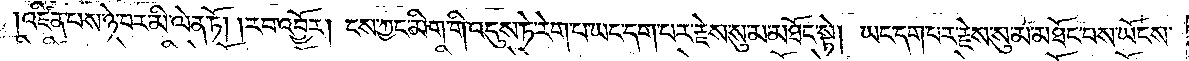འཛིན་པས་ཉེ་བར་མི་ལེན་ཏོ། །རབ་འབྱོར། ངས་ཀྱང་མིག་གི་འདུས་ཏེ་རེག་པ་ཡང་དག་པར་རྗེས་སུ་མ་མཐོང་སྟེ། ཡང་དག་པར་རྗེས་སུ་མ་མཐོང་བས་ཡོངས་
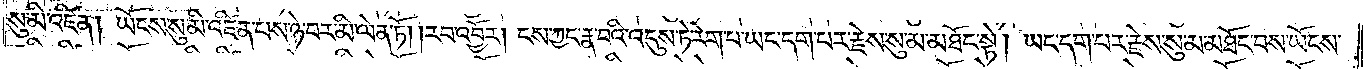སུ་མི་འཛིན། ཡོངས་སུ་མི་འཛིན་པས་ཉེ་བར་མི་ལེན་ཏོ། །རབ་འབྱོར། ངས་ཀྱང་རྣ་བའི་འདུས་ཏེ་རེག་པ་ཡང་དག་པར་རྗེས་སུ་མ་མཐོང་སྟེ། ཡང་དག་པར་རྗེས་སུ་མ་མཐོང་བས་ཡོངས་
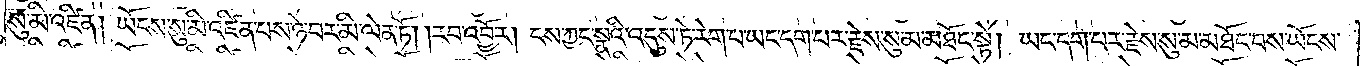སུ་མི་འཛིན། ཡོངས་སུ་མི་འཛིན་པས་ཉེ་བར་མི་ལེན་ཏོ། །རབ་འབྱོར། ངས་ཀྱང་སྣའི་འདུས་ཏེ་རེག་པ་ཡང་དག་པར་རྗེས་སུ་མ་མཐོང་སྟེ། ཡང་དག་པར་རྗེས་སུ་མ་མཐོང་བས་ཡོངས་
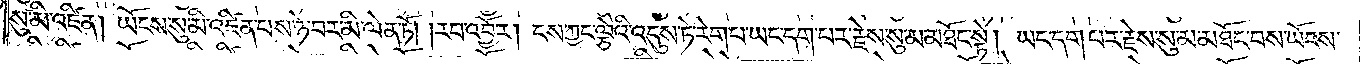སུ་མི་འཛིན། ཡོངས་སུ་མི་འཛིན་པས་ཉེ་བར་མི་ལེན་ཏོ། །རབ་འབྱོར། ངས་ཀྱང་ལྕེའི་འདུས་ཏེ་རེག་པ་ཡང་དག་པར་རྗེས་སུ་མ་མཐོང་སྟེ། ཡང་དག་པར་རྗེས་སུ་མ་མཐོང་བས་ཡོངས་
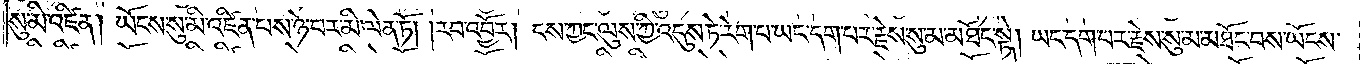སུ་མི་འཛིན། ཡོངས་སུ་མི་འཛིན་པས་ཉེ་བར་མི་ལེན་ཏོ། །རབ་འབྱོར། ངས་ཀྱང་ལུས་ཀྱི་འདུས་ཏེ་རེག་པ་ཡང་དག་པར་རྗེས་སུ་མ་མཐོང་སྟེ། ཡང་དག་པར་རྗེས་སུ་མ་མཐོང་བས་ཡོངས་
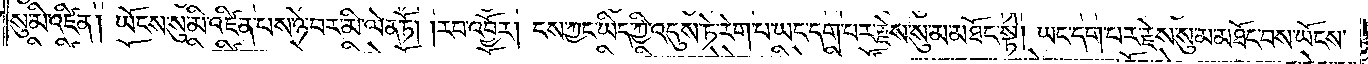སུ་མི་འཛིན། ཡོངས་སུ་མི་འཛིན་པས་ཉེ་བར་མི་ལེན་ཏོ། །རབ་འབྱོར། ངས་ཀྱང་ཡིད་ཀྱི་འདུས་ཏེ་རེག་པ་ཡང་དག་པར་རྗེས་སུ་མ་མཐོང་སྟེ། ཡང་དག་པར་རྗེས་སུ་མ་མཐོང་བས་ཡོངས་
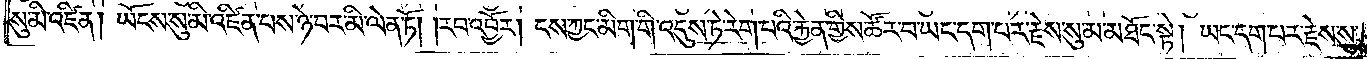སུ་མི་འཛིན། ཡོངས་སུ་མི་འཛིན་པས་ཉེ་བར་མི་ལེན་ཏོ། །རབ་འབྱོར། ངས་ཀྱང་མིག་གི་འདུས་ཏེ་རེག་པའི་རྐྱེན་གྱིས་ཚོར་བ་ཡང་དག་པར་རྗེས་སུ་མ་མཐོང་སྟེ། ཡང་དག་པར་རྗེས་སུ་
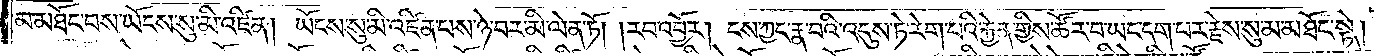མ་མཐོང་བས་ཡོངས་སུ་མི་འཛིན། ཡོངས་སུ་མི་འཛིན་པས་ཉེ་བར་མི་ལེན་ཏོ། །རབ་འབྱོར། ངས་ཀྱང་རྣ་བའི་འདུས་ཏེ་རེག་པའི་རྐྱེན་གྱིས་ཚོར་བ་ཡང་དག་པར་རྗེས་སུ་མ་མཐོང་སྟེ།
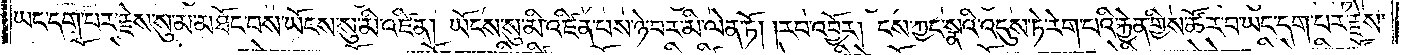ཡང་དག་པར་རྗེས་སུ་མ་མཐོང་བས་ཡོངས་སུ་མི་འཛིན། ཡོངས་སུ་མི་འཛིན་པས་ཉེ་བར་མི་ལེན་ཏོ། །རབ་འབྱོར། ངས་ཀྱང་སྣའི་འདུས་ཏེ་རེག་པའི་རྐྱེན་གྱིས་ཚོར་བ་ཡང་དག་པར་རྗེས་
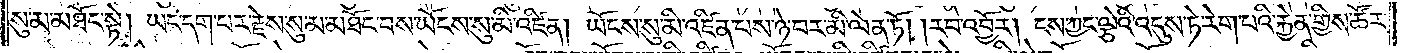སུ་མ་མཐོང་སྟེ། ཡང་དག་པར་རྗེས་སུ་མ་མཐོང་བས་ཡོངས་སུ་མི་འཛིན། ཡོངས་སུ་མི་འཛིན་པས་ཉེ་བར་མི་ལེན་ཏོ། །རབ་འབྱོར། ངས་ཀྱང་ལྕེའི་འདུས་ཏེ་རེག་པའི་རྐྱེན་གྱིས་ཚོར་
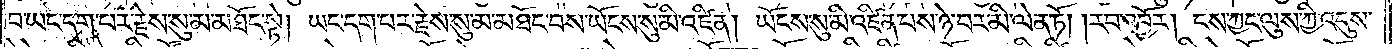བ་ཡང་དག་པར་རྗེས་སུ་མ་མཐོང་སྟེ། ཡང་དག་པར་རྗེས་སུ་མ་མཐོང་བས་ཡོངས་སུ་མི་འཛིན། ཡོངས་སུ་མི་འཛིན་པས་ཉེ་བར་མི་ལེན་ཏོ། །རབ་འབྱོར། ངས་ཀྱང་ལུས་ཀྱི་འདུས་
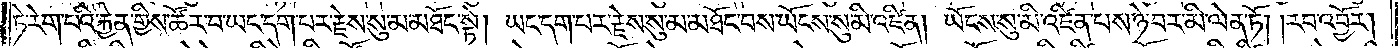ཏེ་རེག་པའི་རྐྱེན་གྱིས་ཚོར་བ་ཡང་དག་པར་རྗེས་སུ་མ་མཐོང་སྟེ། ཡང་དག་པར་རྗེས་སུ་མ་མཐོང་བས་ཡོངས་སུ་མི་འཛིན། ཡོངས་སུ་མི་འཛིན་པས་ཉེ་བར་མི་ལེན་ཏོ། །རབ་འབྱོར།
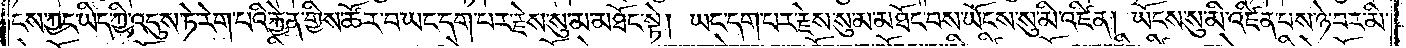ངས་ཀྱང་ཡིད་ཀྱི་འདུས་ཏེ་རེག་པའི་རྐྱེན་གྱིས་ཚོར་བ་ཡང་དག་པར་རྗེས་སུ་མ་མཐོང་སྟེ། ཡང་དག་པར་རྗེས་སུ་མ་མཐོང་བས་ཡོངས་སུ་མི་འཛིན། ཡོངས་སུ་མི་འཛིན་པས་ཉེ་བར་མི་
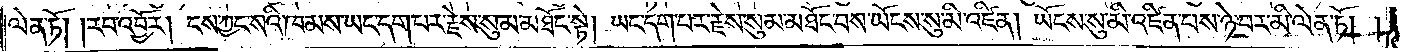ལེན་ཏོ། །རབ་འབྱོར། ངས་ཀྱང་སའི་ཁམས་ཡང་དག་པར་རྗེས་སུ་མ་མཐོང་སྟེ། ཡང་དག་པར་རྗེས་སུ་མ་མཐོང་བས་ཡོངས་སུ་མི་འཛིན། ཡོངས་སུ་མི་འཛིན་པས་ཉེ་བར་མི་ལེན་ཏོ། །
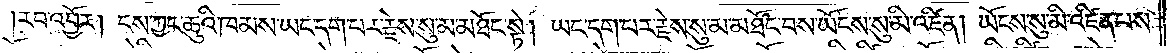རབ་འབྱོར། ངས་ཀྱང་ཆུའི་ཁམས་ཡང་དག་པར་རྗེས་སུ་མ་མཐོང་སྟེ། ཡང་དག་པར་རྗེས་སུ་མ་མཐོང་བས་ཡོངས་སུ་མི་འཛིན། ཡོངས་སུ་མི་འཛིན་པས་
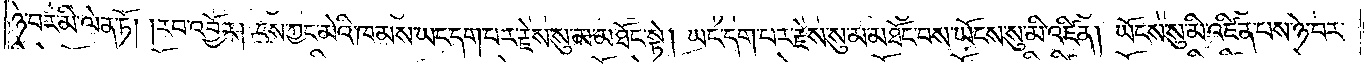ཉེ་བར་མི་ལེན་ཏོ། །རབ་འབྱོར། ངས་ཀྱང་མེའི་ཁམས་ཡང་དག་པར་རྗེས་སུ་མ་མཐོང་སྟེ། ཡང་དག་པར་རྗེས་སུ་མ་མཐོང་བས་ཡོངས་སུ་མི་འཛིན། ཡོངས་སུ་མི་འཛིན་པས་ཉེ་བར་
